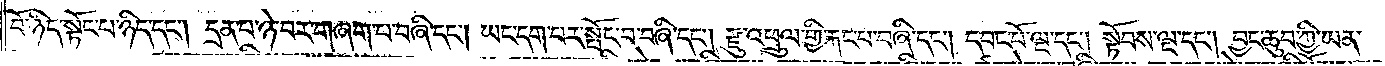བོ་ཉིད་སྟོང་པ་ཉིད་དང༌། དྲན་པ་ཉེ་བར་གཞག་པ་བཞི་དང༌། ཡང་དག་པར་སྤོང་བ་བཞི་དང༌། རྫུ་འཕྲུལ་གྱི་རྐང་པ་བཞི་དང༌། དབང་པོ་ལྔ་དང༌། སྟོབས་ལྔ་དང༌། བྱང་ཆུབ་ཀྱི་ཡན་
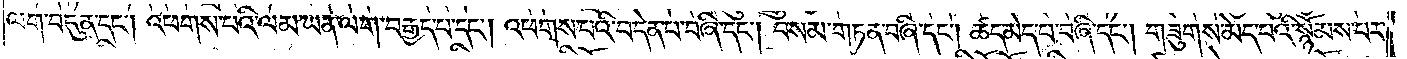ལག་བདུན་དང༌། འཕགས་པའི་ལམ་ཡན་ལག་བརྒྱད་པ་དང༌། འཕགས་པའི་བདེན་པ་བཞི་དང༌། བསམ་གཏན་བཞི་དང༌། ཚད་མེད་པ་བཞི་དང༌། གཟུགས་མེད་པའི་སྙོམས་པར་
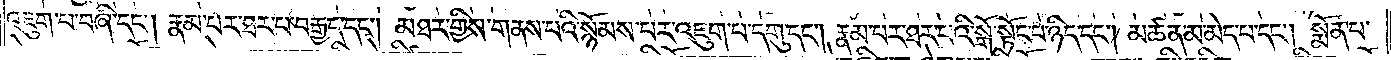འཇུག་པ་བཞི་དང༌། རྣམ་པར་ཐར་པ་བརྒྱད་དང༌། མཐར་གྱིས་གནས་པའི་སྙོམས་པར་འཇུག་པ་དགུ་དང༌། རྣམ་པར་ཐར་པའི་སྒོ་སྟོང་པ་ཉིད་དང༌། མཚན་མ་མེད་པ་དང༌། སྨོན་པ་
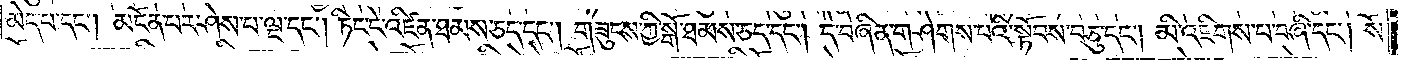མེད་པ་དང༌། མངོན་པར་ཤེས་པ་ལྔ་དང༌། ཏིང་ངེ་འཛིན་ཐམས་ཅད་དང༌། གཟུངས་ཀྱི་སྒོ་ཐམས་ཅད་དང༌། དེ་བཞིན་གཤེགས་པའི་སྟོབས་བཅུ་དང༌། མི་དམིགས་པ་བཞི་དང༌། སོ་
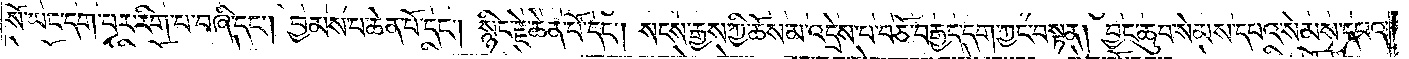སོ་ཡང་དག་པར་རིག་པ་བཞི་དང༌། བྱམས་པ་ཆེན་པོ་དང༌། སྙིང་རྗེ་ཆེན་པོ་དང༌། སངས་རྒྱས་ཀྱི་ཆོས་མ་འདྲེས་པ་བཅོ་བརྒྱད་དག་ཀྱང་བསྟན། བྱང་ཆུབ་སེམས་དཔའ་སེམས་དཔའ་
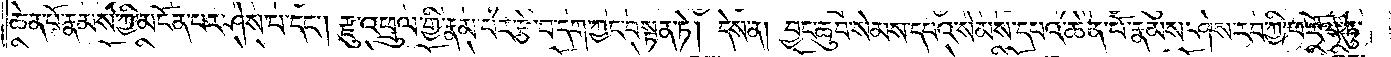ཆེན་པོ་རྣམས་ཀྱི་མངོན་པར་ཤེས་པ་དང༌། རྫུ་འཕྲུལ་གྱི་རྣམ་པར་རྩ་བ་དག་ཀྱང་བསྟན་ཏེ། དེས་ན་བྱང་ཆུབ་སེམས་དཔའ་སེམས་དཔའ་ཆེན་པོ་རྣམས། ཤེས་རབ་ཀྱི་ཕ་རོལ་ཏུ་
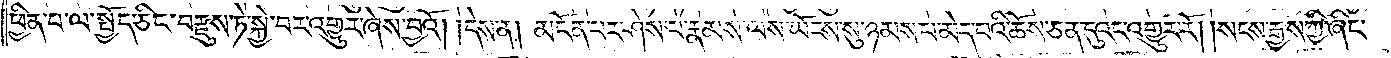ཕྱིན་པ་ལ་སྤྱོད་ཅིང༌། བརྫུས་ཏེ་སྐྱེ་བར་འགྱུར་ཞེས་བྱའོ། །དེས་ན། མངོན་པར་ཤེས་པ་རྣམས་ལས་ཡོངས་སུ་ཉམས་པ་མེད་པའི་ཆོས་ཅན་དུའང་འགྱུར་རོ། །སངས་རྒྱས་ཀྱི་ཞིང་
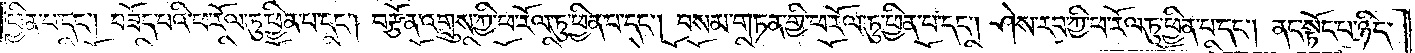ཕྱིན་པ་དང༌། བཟོད་པའི་ཕ་རོལ་ཏུ་ཕྱིན་པ་དང༌། བརྩོན་འགྲུས་ཀྱི་ཕ་རོལ་ཏུ་ཕྱིན་པ་དང༌། བསམ་གཏན་གྱི་ཕ་རོལ་ཏུ་ཕྱིན་པ་དང༌། ཤེས་རབ་ཀྱི་ཕ་རོལ་ཏུ་ཕྱིན་པ་དང༌། ནང་སྟོང་པ་ཉིད་
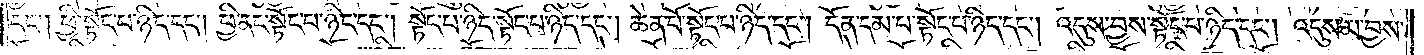དང༌། ཕྱི་སྟོང་པ་ཉིད་དང༌། ཕྱི་ནང་སྟོང་པ་ཉིད་དང༌། སྟོང་པ་ཉིད་སྟོང་པ་ཉིད་དང༌། ཆེན་པོ་སྟོང་པ་ཉིད་དང༌། དོན་དམ་པ་སྟོང་པ་ཉིད་དང༌། འདུས་བྱས་སྟོང་པ་ཉིད་དང༌། འདུས་མ་བྱས་
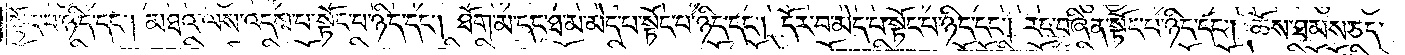སྟོང་པ་ཉིད་དང༌། མཐའ་ལས་འདས་པ་སྟོང་པ་ཉིད་དང༌། ཐོག་མ་དང་ཐ་མ་མེད་པ་སྟོང་པ་ཉིད་དང༌། དོར་བ་མེད་པ་སྟོང་པ་ཉིད་དང༌། རང་བཞིན་སྟོང་པ་ཉིད་དང༌། ཆོས་ཐམས་ཅད་
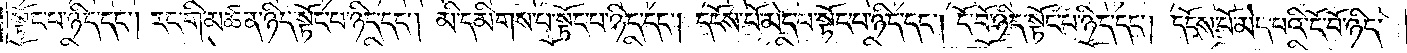སྟོང་པ་ཉིད་དང༌། རང་གི་མཚན་ཉིད་སྟོང་པ་ཉིད་དང༌། མི་དམིགས་པ་སྟོང་པ་ཉིད་དང༌། དངོས་པོ་མེད་པ་སྟོང་པ་ཉིད་དང༌། ངོ་བོ་ཉིད་སྟོང་པ་ཉིད་དང༌། དངོས་པོ་མེད་པའི་ངོ་བོ་ཉིད་
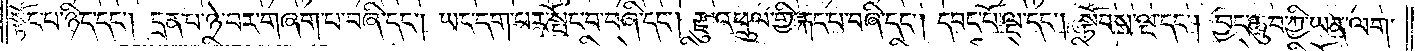སྟོང་པ་ཉིད་དང༌། དྲན་པ་ཉེ་བར་བཞག་པ་བཞི་དང༌། ཡང་དག་པར་སྤོང་བ་བཞི་དང༌། རྫུ་འཕྲུལ་གྱི་རྐང་པ་བཞི་དང༌། དབང་པོ་ལྔ་དང༌། སྟོབས་ལྔ་དང༌། བྱང་ཆུབ་ཀྱི་ཡན་ལག་
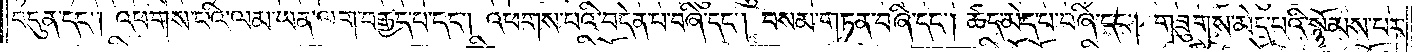བདུན་དང༌། འཕགས་པའི་ལམ་ཡན་ལག་བརྒྱད་པ་དང༌། འཕགས་པའི་བདེན་པ་བཞི་དང༌། བསམ་གཏན་བཞི་དང༌། ཚད་མེད་པ་བཞི་དང༌། གཟུགས་མེད་པའི་སྙོམས་པར་
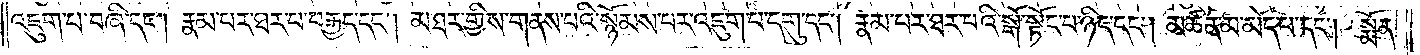འཇུག་པ་བཞི་དང༌། རྣམ་པར་ཐར་པ་བརྒྱད་དང༌། མཐར་གྱིས་གནས་པའི་སྙོམས་པར་འཇུག་པ་དགུ་དང༌། རྣམ་པར་ཐར་པའི་སྒོ་སྟོང་པ་ཉིད་དང༌། མཚན་མ་མེད་པ་དང༌། སྨོན་
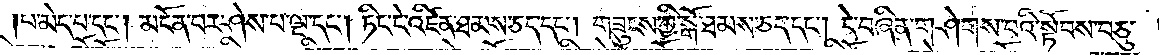པ་མེད་པ་དང༌། མངོན་པར་ཤེས་པ་ལྔ་དང༌། ཏིང་ངེ་འཛིན་ཐམས་ཅད་དང༌། གཟུངས་ཀྱི་སྒོ་ཐམས་ཅད་དང༌། དེ་བཞིན་གཤེགས་པའི་སྟོབས་བཅུ་
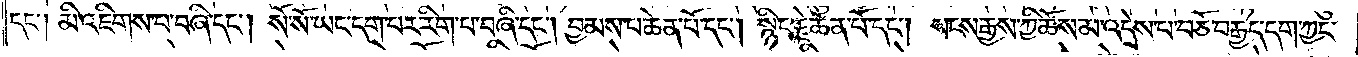དང༌༏ མི་འཇིགས་པ་བཞི་དང༌། སོ་སོ་ཡང་དག་པར་རིག་པ་བཞི་དང༌། བྱམས་པ་ཆེན་པོ་དང༌། སྙིང་རྗེ་ཆེན་པོ་དང༌། །སངས་རྒྱས་ཀྱི་ཆོས་མ་འདྲེས་པ་བཅོ་བརྒྱད་དག་ཀྱང་
